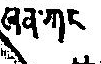ཞན་ཀང
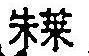朱莱
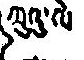ཀྲུའུ་ལེ
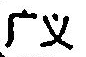广义
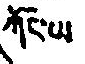ཀོང་ཡ
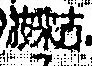波来古
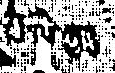པ་ལེ་ཀུའུ
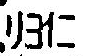归仁
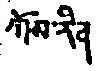ཀོས་རིན
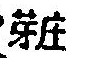芽庄
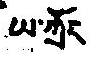ཡ་ཀྲོང
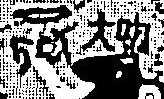ཏ་ལོ་ 大叻
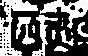西贡
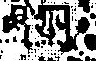ཟི་ཀུན
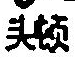头顿
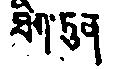ཐིག་ཏུན
